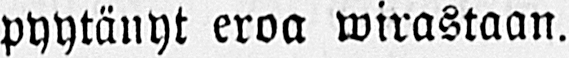pyytänyt eroa wirastaan.
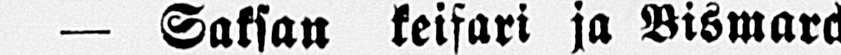- Saksan keisari ja Bismarck
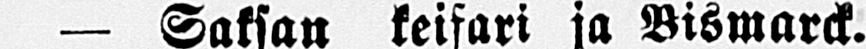Berlinistä, maalisk. 26 lp. Keisarin
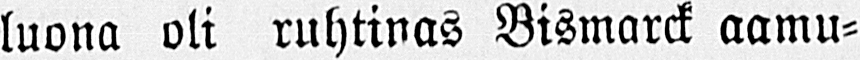luona oli ruhtinas Bismarck aamu-
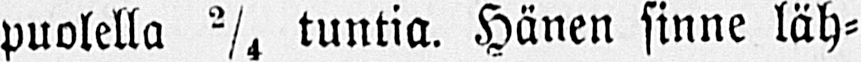puolella 2/4 tuntia. Hänen sinne läh-
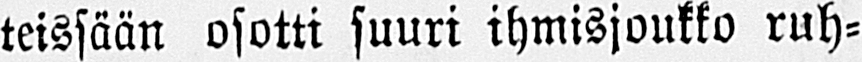teissään osotti suuri ihmisjoukko ruh-
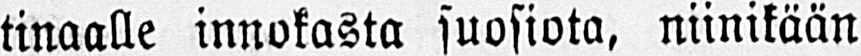tinaalle innokasta suosiota, niinikään
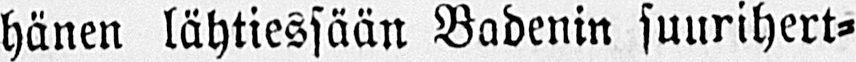hänen lähtiessään Badenin suurihert-
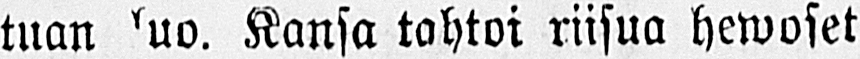tuan luo. Kansa tahtoi riisua hewoset
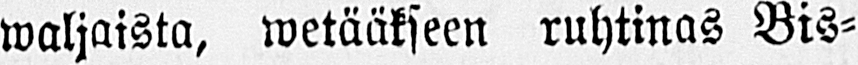waljoista, wetääkseen ruhtinas Bis-
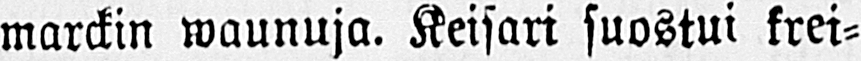marckin waunuja. Keisari suostui krei-
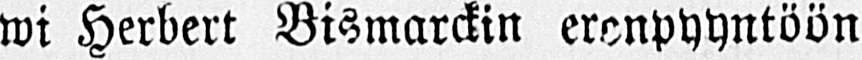wi Herbert Bismarckin eronpyyntöön
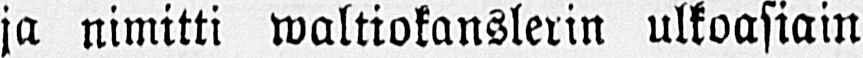ja nimitti waltiokanslerin ulkoasiain
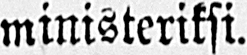ministeriksi.
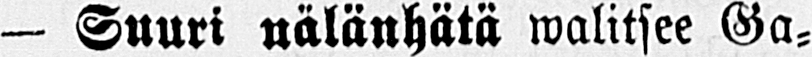— Suuri nälänhätä walitsee Ga-
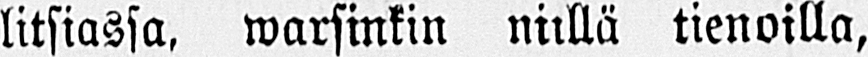litsiassa, warsinkin niillä tienoilla,
